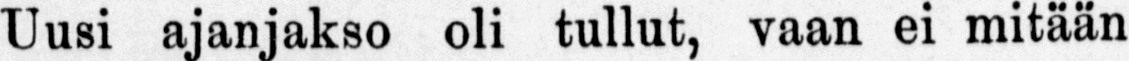Uusi ajanjakso oli tullut, vaan ei mitään
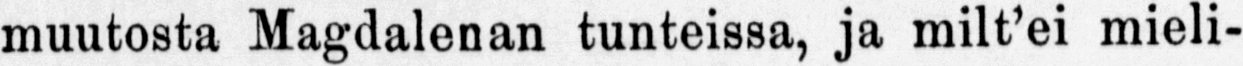muutosta Magdalenan tunteissa, milt'ei mieli-
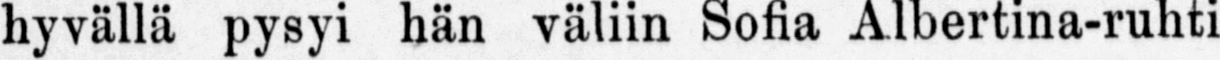hyvällä hän vä liin Sofia Albertina-ruhti-
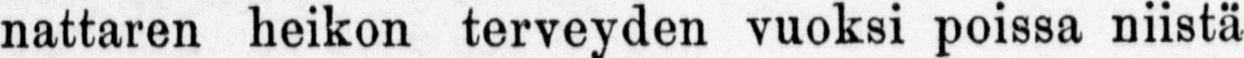nattaren heikon terveyden vuoksi poissa niistä
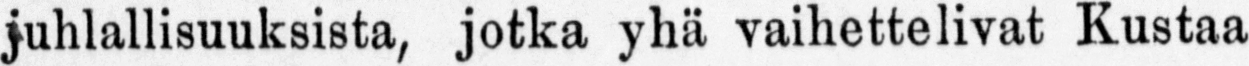juhlallisuuksista, jotka yh ä vaihettelivat Kustaa
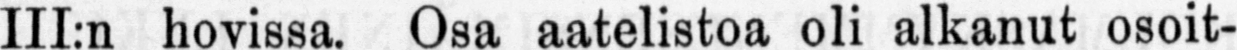III:n hovissa. Osa aatelistoa oli alkanut osoit-
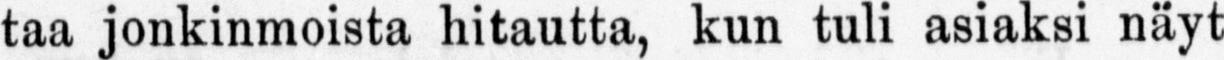taa jonkinmoista hitautta, kun tuli asiaksi näyt-
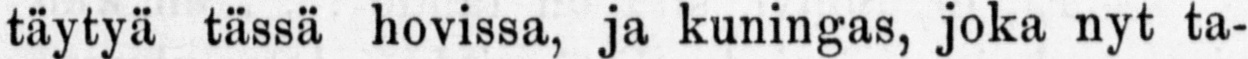tä ytyä tässä hovissa, ja kuningas, joka nyt ta-
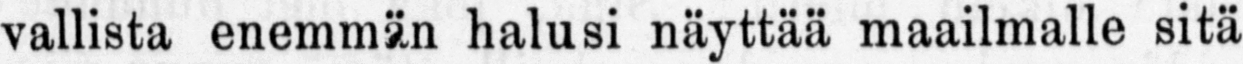vallista enemmän halusi näyttää maailmalle sitä
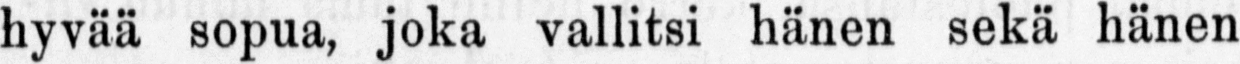hyvää sopua, vallitsi hänen sekä hänen
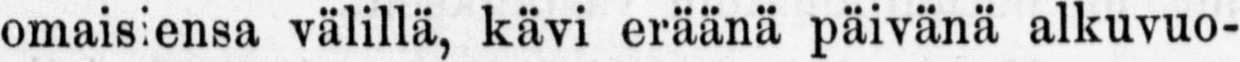omaisiensa välillä, kävi eräänä päivänä alkuvuo-
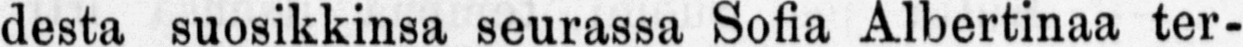desta suosikkinsa seurassa Sofia Albertinaa ter-
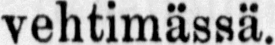vehtimässä.
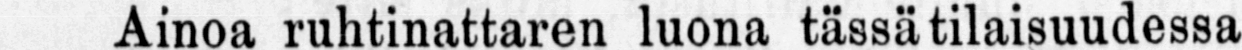Ainoa ruhtinattaren luona tässä tilaisuudessa
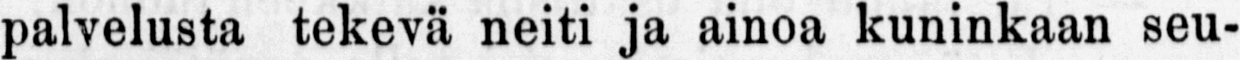palvelusta tekevä neiti ainoa kuninkaan seu-
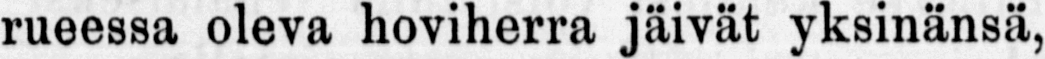rueessa oleva hoviherra jäivät yksinänsä, ja Mag-
